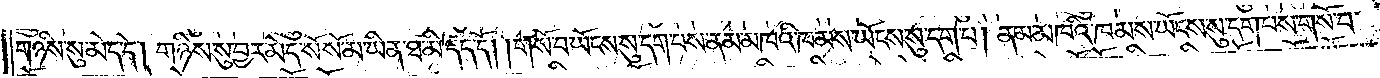གཉིས་སུ་མེད་དེ། གཉིས་སུ་བྱར་མེད་སོ་སོ་མ་ཡིན་ཐ་མི་དད་དོ། །གསོ་བ་ཡོངས་སུ་དག་པས་ནམ་མཁའི་ཁམས་ཡོངས་སུ་དག་པ། ནམ་མཁའི་ཁམས་ཡོངས་སུ་དག་པས་གསོ་བ་
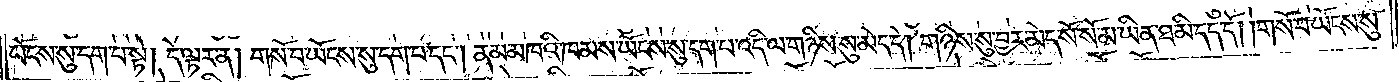ཡོངས་སུ་དག་པ་སྟེ། དེ་ལྟར་ན། གསོ་བ་ཡོངས་སུ་དག་པ་དང༌། ནམ་མཁའི་ཁམས་ཡོངས་སུ་དག་པ་འདི་ལ་གཉིས་སུ་མེད་དེ། གཉིས་སུ་བྱར་མེད་སོ་སོ་མ་ཡིན་ཐ་མི་དད་དོ། །གསོ་བ་ཡོངས་སུ་
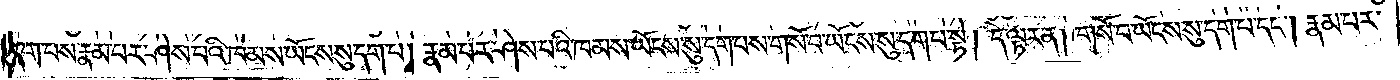དག་པས་རྣམ་པར་ཤེས་པའི་ཁམས་ཡོངས་སུ་དག་པ། རྣམ་པར་ཤེས་པའི་ཁམས་ཡོངས་སུ་དག་པས་གསོ་བ་ཡོངས་སུ་དག་པ་སྟེ། དེ་ལྟར་ན། གསོ་བ་ཡོངས་སུ་དག་པ་དང༌། རྣམ་པར་
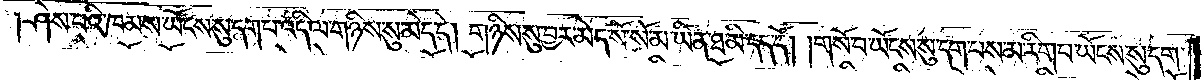ཤེས་པའི་ཁམས་ཡོངས་སུ་དག་པ་འདི་ལ་གཉིས་སུ་མེད་དེ། གཉིས་སུ་བྱར་མེད་སོ་སོ་མ་ཡིན་ཐ་མི་དད་དོ། །གསོ་བ་ཡོངས་སུ་དག་པས་མ་རིག་པ་ཡོངས་སུ་དག་
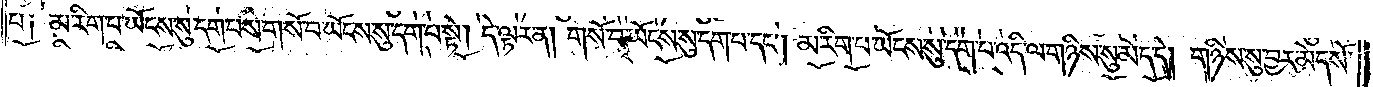པ༑ མ་རིག་པ་ཡོངས་སུ་དག་པས་གསོ་བ་ཡོངས་སུ་དག་པ་སྟེ། དེ་ལྟར་ན། གསོ་བ་ཡོངས་སུ་དག་པ་དང༌། མ་རིག་པ་ཡོངས་སུ་དག་པ་འདི་ལ་གཉིས་སུ་མེད་དེ། གཉིས་སུ་བྱར་མེད་སོ་
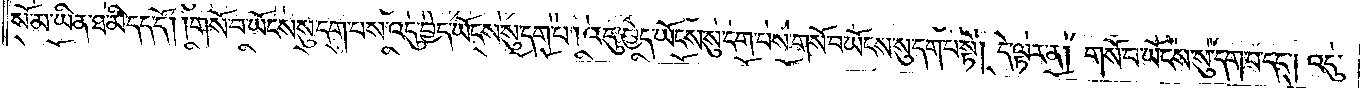སོ་མ་ཡིན་ཐ་མི་དད་དོ། །གསོ་བ་ཡོངས་སུ་དག་པས་འདུ་བྱེད་ཡོངས་སུ་དག་པ། འདུ་བྱེད་ཡོངས་སུ་དག་པས་གསོ་བ་ཡོངས་སུ་དག་པ་སྟེ། དེ་ལྟར་ན། གསོ་བ་ཡོངས་སུ་དག་པ་དང༌། འདུ་
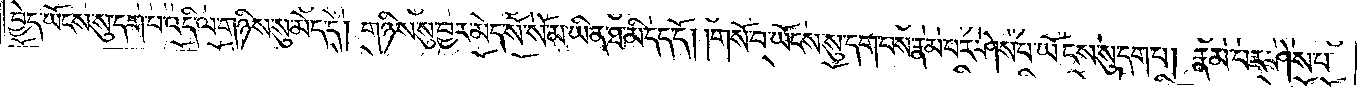བྱེད་ཡོངས་སུ་དག་པ་འདི་ལ་གཉིས་སུ་མེད་དེ། གཉིས་སུ་བྱར་མེད་སོ་སོ་མ་ཡིན་ཐ་མི་དད་དོ། །གསོ་བ་ཡོངས་སུ་དག་པས་རྣམ་པར་ཤེས་པ་ཡོངས་སུ་དག་པ། རྣམ་པར་ཤེས་པ་
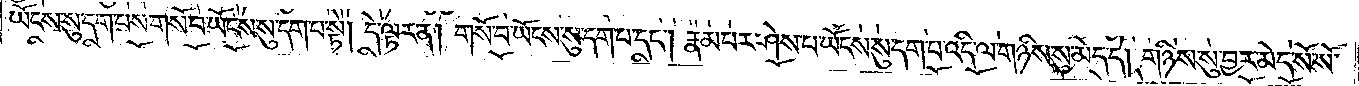ཡོངས་སུ་དག་པས་གསོ་བ་ཡོངས་སུ་དག་པ་སྟེ། དེ་ལྟར་ན། གསོ་བ་ཡོངས་སུ་དག་པ་དང༌། རྣམ་པར་ཤེས་པ་ཡོངས་སུ་དག་པ་འདི་ལ་གཉིས་སུ་མེད་དེ། གཉིས་སུ་བྱར་མེད་སོ་སོ་
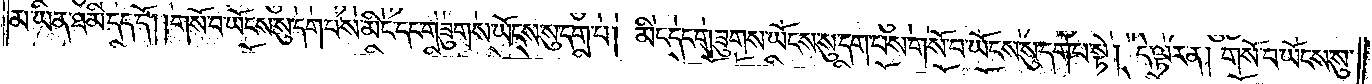མ་ཡིན་ཐ་མི་དད་དོ། །གསོ་བ་ཡོངས་སུ་དག་པས་མིང་དང་གཟུགས་ཡོངས་སུ་དག་པ། མིང་དང་གཟུགས་ཡོངས་སུ་དག་པས་གསོ་བ་ཡོངས་སུ་དག་པ་སྟེ། དེ་ལྟར་ན། གསོ་བ་ཡོངས་སུ་
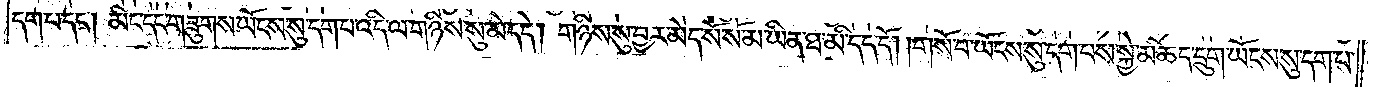དག་པ་དང༌། མིང་དང་གཟུགས་ཡོངས་སུ་དག་པ་འདི་ལ་གཉིས་སུ་མེད་དེ། གཉིས་སུ་བྱར་མེད་སོ་སོ་མ་ཡིན་ཐ་མི་དད་དོ། །གསོ་བ་ཡོངས་སུ་དག་པས་སྐྱེ་མཆེད་དྲུག་ཡོངས་སུ་དག་པ།
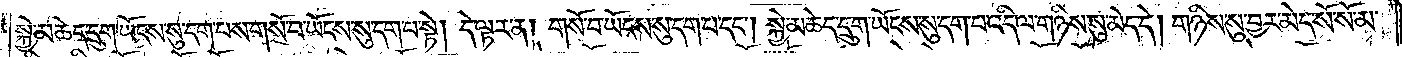སྐྱེ་མཆེད་དྲུག་ཡོངས་སུ་དག་པས་གསོ་བ་ཡོངས་སུ་དག་པ་སྟེ། དེ་ལྟར་ན། གསོ་བ་ཡོངས་སུ་དག་པ་དང་། སྐྱེ་མཆེད་དྲུག་ཡོངས་སུ་དག་པ་འདི་ལ་གཉིས་སུ་མེད་དེ། གཉིས་སུ་བྱར་མེད་སོ་སོ་མ་
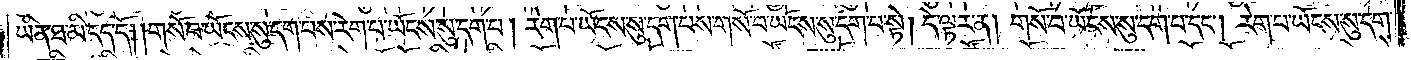ཡིན་ཐ་མི་དད་དོ། །གསོ་བ་ཡོངས་སུ་དག་པས་རེག་པ་ཡོངས་སུ་དག་པ། རེག་པ་ཡོངས་སུ་དག་པས་གསོ་བ་ཡོངས་སུ་དག་པ་སྟེ། དེ་ལྟར་ན། གསོ་བ་ཡོངས་སུ་དག་པ་དང༌། རེག་པ་ཡོངས་སུ་དག་
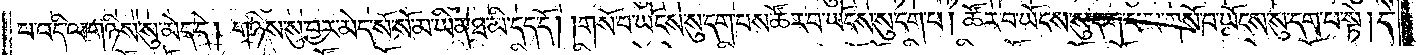པ་འདི་ལ་གཉིས་སུ་མེད་དེ། གཉིས་སུ་བྱར་མེད་སོ་སོ་མ་ཡིན་ཐ་མི་དད་དོ། །གསོ་བ་ཡོངས་སུ་དག་པས་ཚོར་བ་ཡོངས་སུ་དག་པ། ཚོར་བ་ཡོངས་སུ་དག་པས་གསོ་བ་ཡོངས་སུ་དག་པ་སྟེ། དེ་
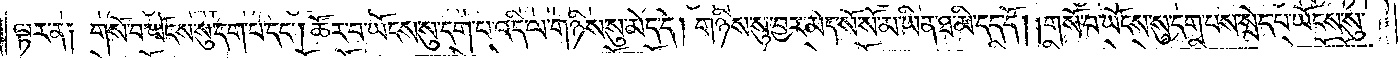ལྟར་ན༑ གསོ་བ་ཡོངས་སུ་དག་པ་དང༌། ཚོར་བ་ཡོངས་སུ་དག་པ་འདི་ལ་གཉིས་སུ་མེད་དེ། གཉིས་སུ་བྱར་མེད་སོ་སོ་མ་ཡིན་ཐ་མི་དད་དོ། །གསོ་བ་ཡོངས་སུ་དག་པས་སྲེད་པ་ཡོངས་སུ་
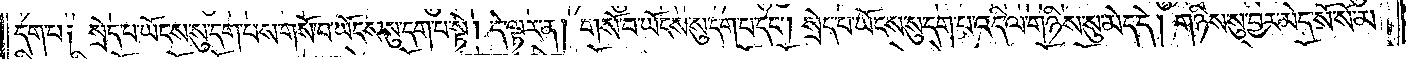དག་པ༑ སྲེད་པ་ཡོངས་སུ་དག་པས་གསོ་བ་ཡོངས་སུ་དག་པ་སྟེ། དེ་ལྟར་ན། གསོ་བ་ཡོངས་སུ་དག་པ་དང༌། སྲེད་པ་ཡོངས་སུ་དག་པ་འདི་ལ་གཉིས་སུ་མེད་དེ། གཉིས་སུ་བྱར་མེད་སོ་སོ་མ་
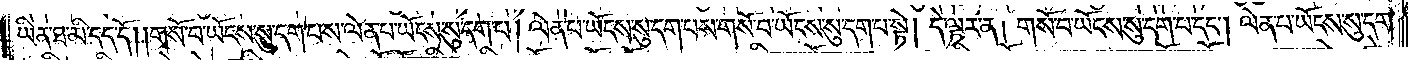ཡིན་ཐ་མི་དད་དོ། །གསོ་བ་ཡོངས་སུ་དག་པས་ལེན་པ་ཡོངས་སུ་དག་པ། ལེན་པ་ཡོངས་སུ་དག་པས་གསོ་བ་ཡོངས་སུ་དག་པ་སྟེ། དེ་ལྟར་ན། གསོ་བ་ཡོངས་སུ་དག་པ་དང༌། ལེན་པ་ཡོངས་སུ་དག་
